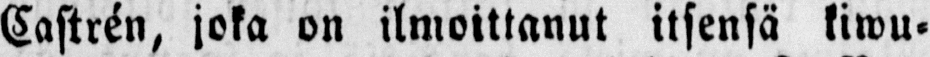Castrén, joka on ilmoittanut itsensä kiwu-
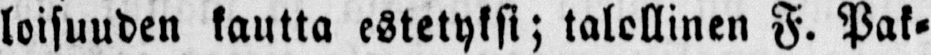loisuuden kautta estetyksi; talollinen F. Pak-
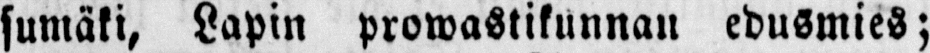sumäki, Lapin prowastikunnan edusmies;
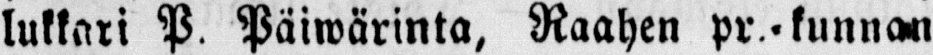lukkari P. Päiwärinta, Raahen pr -kunnan
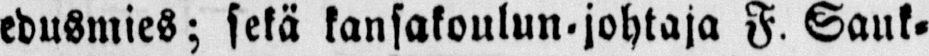edusmies; sekä kansakoulun.johtaja F. Sauk-
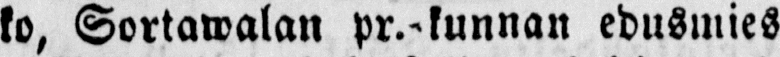ko, Sortawalan pr.-kunnan edusmies
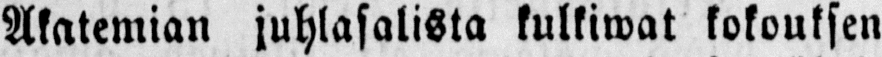Akatemian juhlasalista kulkiwat kokouksen
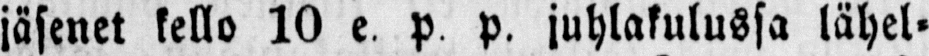jäsenet kello 10 e p p. juhlakulussa lähel-
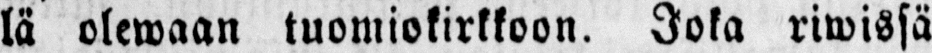lä olemaan tuomiokirkkoon. Joka riwissä
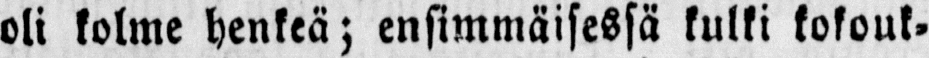oli kolme henkeä; ensimmäisessä kulki kokouk.
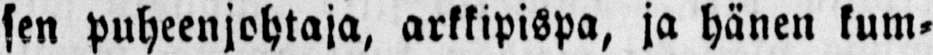sen puheenjohtaja, arkkipispa, ja hänen kum-
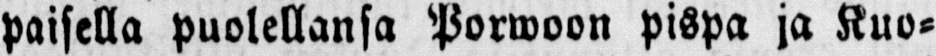paisella puolellansa Porwoon pispa ja Kuo-
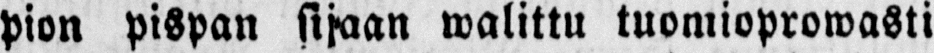pion pispan sijaan walittu tuomioprowasti
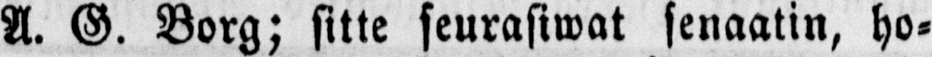A. G. Borg; sitte seurasiwat senaatin, ho-
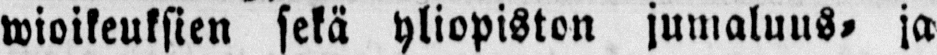wioikeuksien sekä yliopiston jumaluus- ja
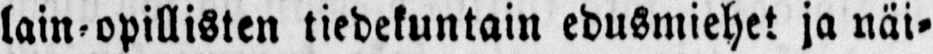lain.opillisten tiedekuntain edusmiehet ja näi-
